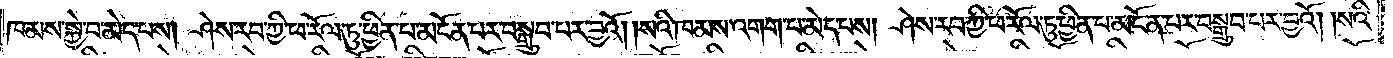ཁམས་སྐྱེ་བ་མེད་པས། ཤེས་རབ་ཀྱི་ཕ་རོལ་ཏུ་ཕྱིན་པ་མངོན་པར་བསྒྲུབ་པར་བྱའོ། །སའི་ཁམས་འགག་པ་མེད་པས། ཤེས་རབ་ཀྱི་ཕ་རོལ་ཏུ་ཕྱིན་པ་མངོན་པར་བསྒྲུབ་པར་བྱའོ། །སའི་
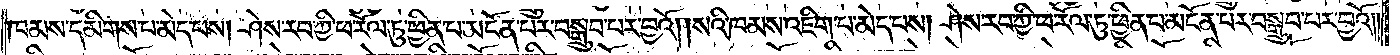ཁམས་དམིགས་པ་མེད་པས། ཤེས་རབ་ཀྱི་ཕ་རོལ་ཏུ་ཕྱིན་པ་མངོན་པར་བསྒྲུབ་པར་བྱའོ། །སའི་ཁམས་འཇིག་པ་མེད་པས། ཤེས་རབ་ཀྱི་ཕ་རོལ་ཏུ་ཕྱིན་པ་མངོན་པར་བསྒྲུབ་པར་བྱའོ། །
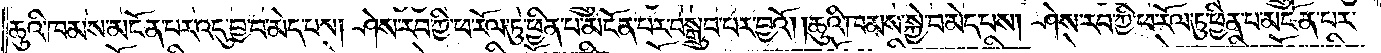ཆུའི་ཁམས་མངོན་པར་འདུ་བྱ་བ་མེད་པས། ཤེས་རབ་ཀྱི་ཕ་རོལ་ཏུ་ཕྱིན་པ་མངོན་པར་བསྒྲུབ་པར་བྱའོ། །ཆུའི་ཁམས་སྐྱེ་བ་མེད་པས། ཤེས་རབ་ཀྱི་ཕ་རོལ་ཏུ་ཕྱིན་པ་མངོན་པར་
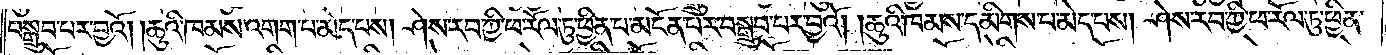བསྒྲུབ་པར་བྱའོ། །ཆུའི་ཁམས་འགག་པ་མེད་པས། ཤེས་རབ་ཀྱི་ཕ་རོལ་ཏུ་ཕྱིན་པ་མངོན་པར་བསྒྲུབ་པར་བྱའོ། །ཆུའི་ཁམས་དམིགས་པ་མེད་པས། ཤེས་རབ་ཀྱི་ཕ་རོལ་ཏུ་ཕྱིན་
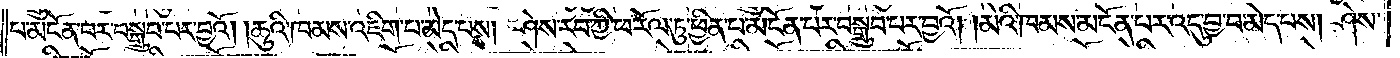པ་མངོན་པར་བསྒྲུབ་པར་བྱའོ། །ཆུའི་ཁམས་འཇིག་པ་མེད་པས། ཤེས་རབ་ཀྱི་ཕ་རོལ་ཏུ་ཕྱིན་པ་མངོན་པར་བསྒྲུབ་པར་བྱའོ། །མེའི་ཁམས་མངོན་པར་འདུ་བྱ་བ་མེད་པས། ཤེས་
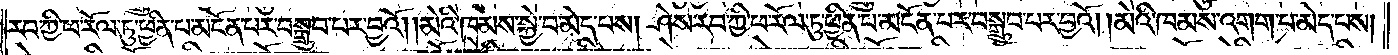རབ་ཀྱི་ཕ་རོལ་ཏུ་ཕྱིན་པ་མངོན་པར་བསྒྲུབ་པར་བྱའོ། །མེའི་ཁམས་སྐྱེ་བ་མེད་པས། ཤེས་རབ་ཀྱི་ཕ་རོལ་ཏུ་ཕྱིན་པ་མངོན་པར་བསྒྲུབ་པར་བྱའོ། །མེའི་ཁམས་འགག་པ་མེད་པས།
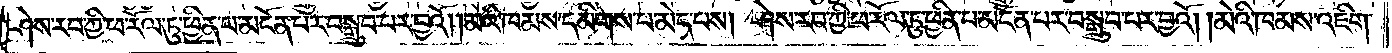ཤེས་རབ་ཀྱི་ཕ་རོལ་ཏུ་ཕྱིན་པ་མངོན་པར་བསྒྲུབ་པར་བྱའོ། །མེའི་ཁམས་དམིགས་པ་མེད་པས། ཤེས་རབ་ཀྱི་ཕ་རོལ་ཏུ་ཕྱིན་པ་མངོན་པར་བསྒྲུབ་པར་བྱའོ། །མེའི་ཁམས་འཇིག་
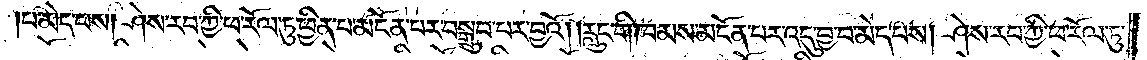པ་མེད་པས། ཤེས་རབ་ཀྱི་ཕ་རོལ་ཏུ་ཕྱིན་པ་མངོན་པར་བསྒྲུབ་པར་བྱའོ། །རླུང་གི་ཁམས་མངོན་པར་འདུ་བྱ་བ་མེད་པས། ཤེས་རབ་ཀྱི་ཕ་རོལ་ཏུ་
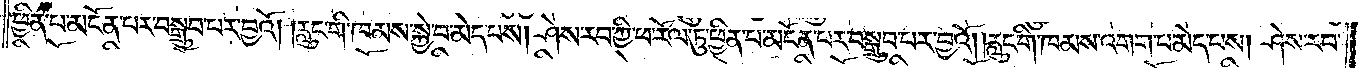ཕྱིན་པ་མངོན་པར་བསྒྲུབ་པར་བྱའོ། །རླུང་གི་ཁམས་སྐྱེ་བ་མེད་པས། ཤེས་རབ་ཀྱི་ཕ་རོལ་ཏུ་ཕྱིན་པ་མངོན་པར་བསྒྲུབ་པར་བྱའོ། །རླུང་གི་ཁམས་འགག་པ་མེད་པས། ཤེས་རབ་
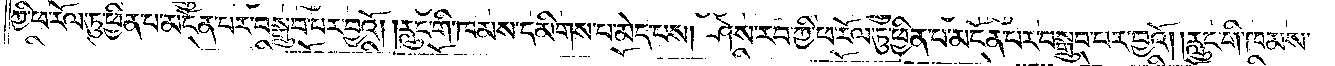ཀྱི་ཕ་རོལ་ཏུ་ཕྱིན་པ་མངོན་པར་བསྒྲུབ་པར་བྱའོ། །རླུང་གི་ཁམས་དམིགས་པ་མེད་པས། ཤེས་རབ་ཀྱི་ཕ་རོལ་ཏུ་ཕྱིན་པ་མངོན་པར་བསྒྲུབ་པར་བྱའོ། །རླུང་གི་ཁམས་
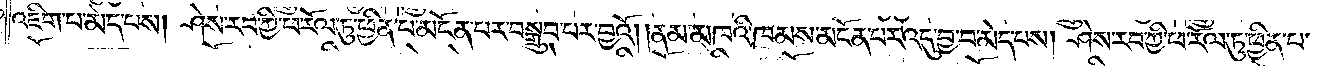འཇིག་པ་མེད་པས། ཤེས་རབ་ཀྱི་ཕ་རོལ་ཏུ་ཕྱིན་པ་མངོན་པར་བསྒྲུབ་པར་བྱའོ། །ནམ་མཁའི་ཁམས་མངོན་པར་འདུ་བྱ་བ་མེད་པས། ཤེས་རབ་ཀྱི་ཕ་རོལ་ཏུ་ཕྱིན་པ་
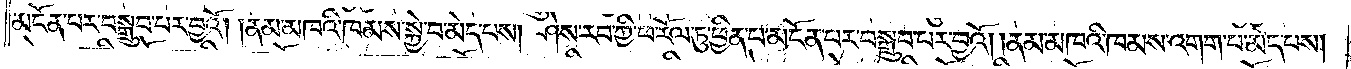མངོན་པར་བསྒྲུབ་པར་བྱའོ། །ནམ་མཁའི་ཁམས་སྐྱེ་བ་མེད་པས། ཤེས་རབ་ཀྱི་ཕ་རོལ་ཏུ་ཕྱིན་པ་མངོན་པར་བསྒྲུབ་པར་བྱའོ། །ནམ་མཁའི་ཁམས་འགག་པ་མེད་པས།
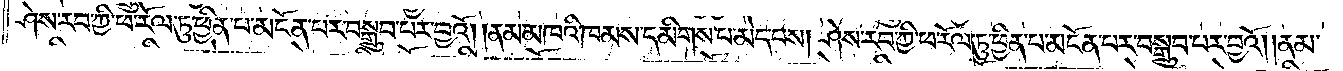ཤེས་རབ་ཀྱི་ཕ་རོལ་ཏུ་ཕྱིན་པ་མངོན་པར་བསྒྲུབ་པར་བྱའོ། །ནམ་མཁའི་ཁམས་དམིགས་པ་མེད་པས། ཤེས་རབ་ཀྱི་ཕ་རོལ་ཏུ་ཕྱིན་པ་མངོན་པར་བསྒྲུབ་པར་བྱའོ། །ནམ་
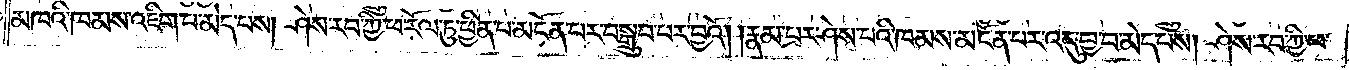མཁའི་ཁམས་འཇིག་པ་མེད་པས། ཤེས་རབ་ཀྱི་ཕ་རོལ་ཏུ་ཕྱིན་པ་མངོན་པར་བསྒྲུབ་པར་བྱའོ། །རྣམ་པར་ཤེས་པའི་ཁམས་མངོན་པར་འདུ་བྱ་བ་མེད་པས། ཤེས་རབ་ཀྱི་ཕ་
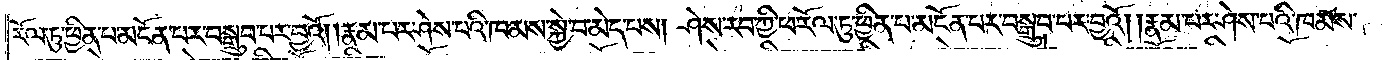རོལ་ཏུ་ཕྱིན་པ་མངོན་པར་བསྒྲུབ་པར་བྱའོ། །རྣམ་པར་ཤེས་པའི་ཁམས་སྐྱེ་བ་མེད་པས། ཤེས་རབ་ཀྱི་ཕ་རོལ་ཏུ་ཕྱིན་པ་མངོན་པར་བསྒྲུབ་པར་བྱའོ། །རྣམ་པར་ཤེས་པའི་ཁམས་
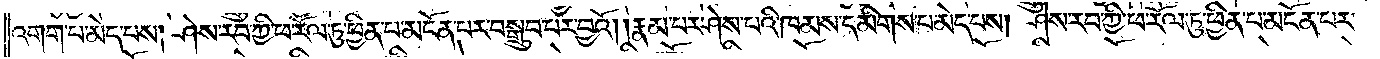འགག་པ་མེད་པས། ཤེས་རབ་ཀྱི་ཕ་རོལ་ཏུ་ཕྱིན་པ་མངོན་པར་བསྒྲུབ་པར་བྱའོ། །རྣམ་པར་ཤེས་པའི་ཁམས་དམིགས་པ་མེད་པས། ཤེས་རབ་ཀྱི་ཕ་རོལ་ཏུ་ཕྱིན་པ་མངོན་པར་
